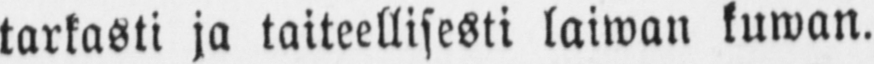tarkasti ja taiteellisesti laiwan kuwan.
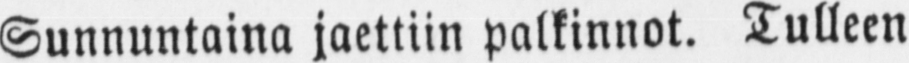Sunnuntaina jaettiin palkinnot. Tulleen
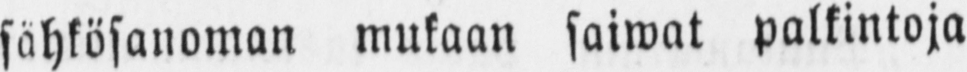sähkösanoman mukaan saiwat palkintoja
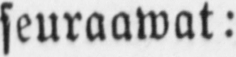seuraawat:
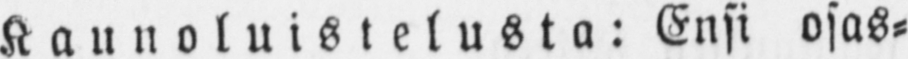Kaunoluistelusta: Ensi osas-
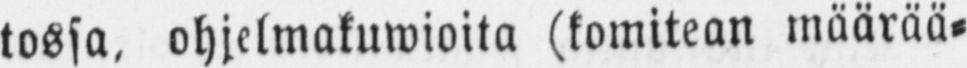tossa, ohjelmakuwioita (komitean määrää-
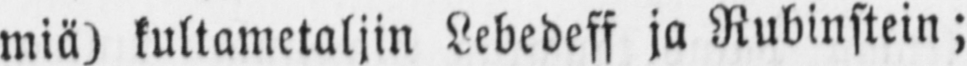miä) kultametaljin Lebedeff ja Rubinstein;
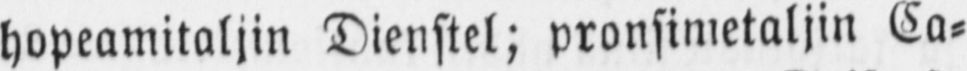hopeamitaljin Dienstel; pronsimetaljin Ca-
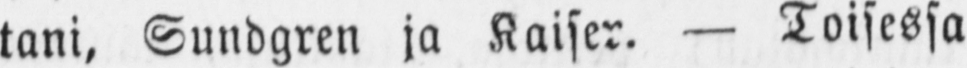tani, Sundgren ja Kaiser. — Toisessa
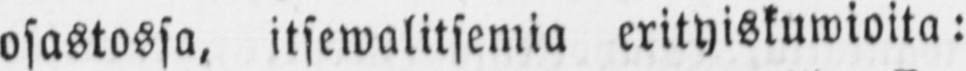osastossa, itsewalitsemia erityiskuwioita:
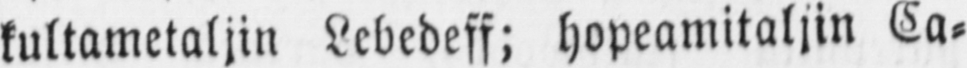kultametaljin Lebedeff; hopeamitaliin Ca-
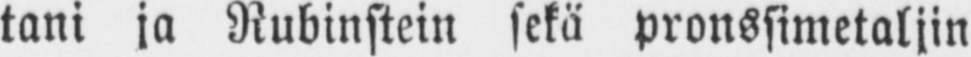tani ja Rubinstein sekä pronssimetaljin
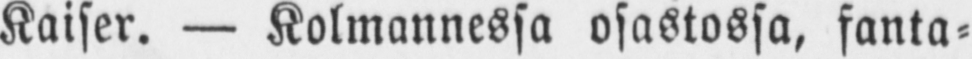Kaiser. — Kolmannessa osastossa, fanta-
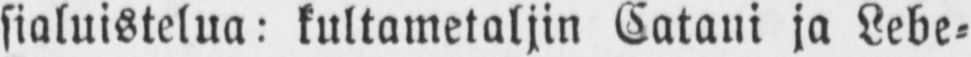sialuistelua: kultametaljin Catani ja Lebe-
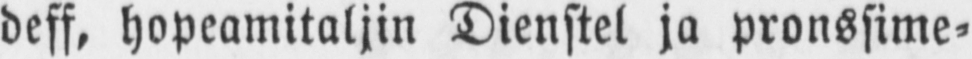deff, hopeamitaljin Dienstel ja pronssime-
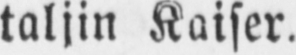taljin Kaiser.
